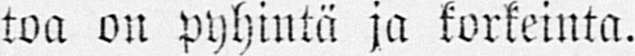toa on pyhintä ja korkeinta.
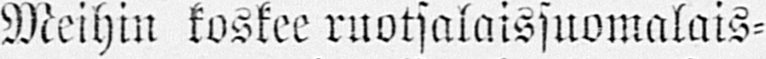Meihin koskee ruotsalaissuomalais-
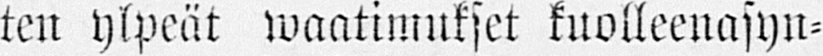ten ylpeät waatimukset kuolleenasyn-
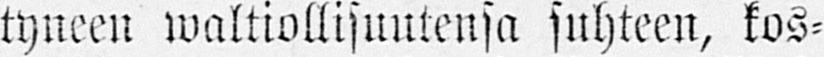tyneen waltiollisuutensa suhteen, kos-
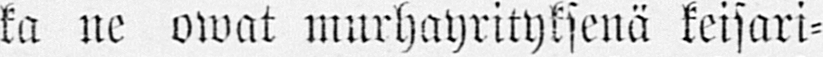ka ne owat murhayrityksenä keisari-
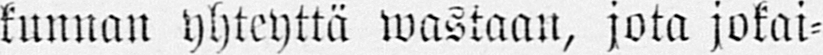kunnan yhteyttä wastaan, jota jokai-
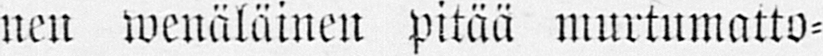nen wenäläinen pitää murtumatto-
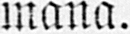mana.
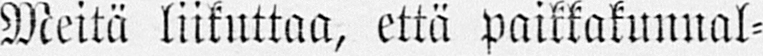Meitä liikuttaa, että paikkakunnal-
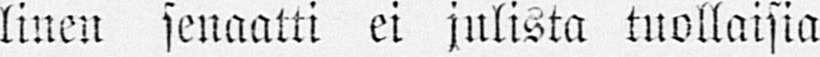linen senaatti ei julista tuollaisia
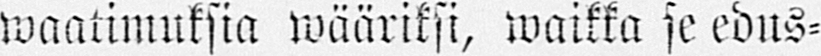waatimuksia wääriksi, waikka se edus-
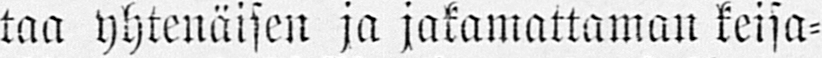taa yhtenäisen ja jakamattaman keisa-
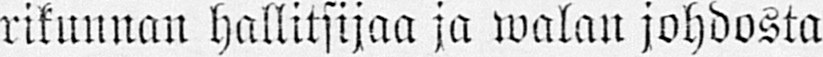rikunnan hallitsijaa ja walan johdosta
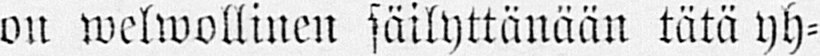on welwollinen säilyttänään tätä yh-
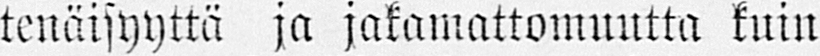tenäisyyttä ja jakamattomuutta kuin
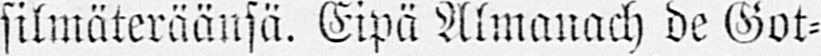silmäteräänsä. Eipä Almanach de Got-
